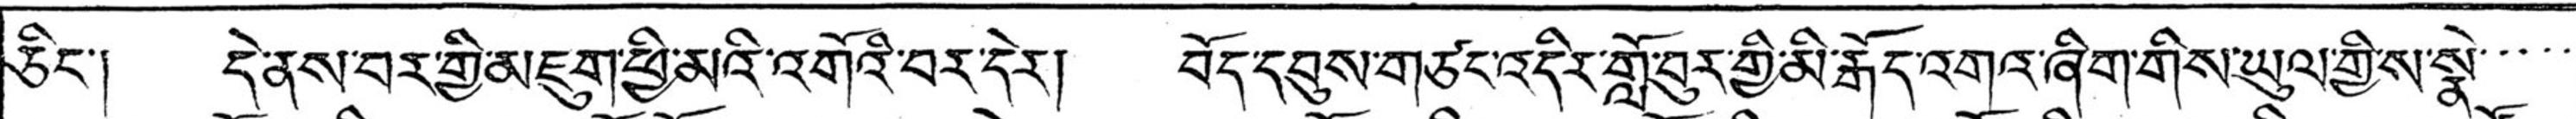ཅིང་། དེ་ནས་བར་གྱི་མཇུག་ཕྱི་མའི་འགོའི་བར་དེར། བོད་དབུས་གཙང་འདིར་གློ་བུར་གྱི་མི་རྒོད་འགའ་ཞིག་གིས་ཡུལ་གྱི་ས་སྣེ་་་་
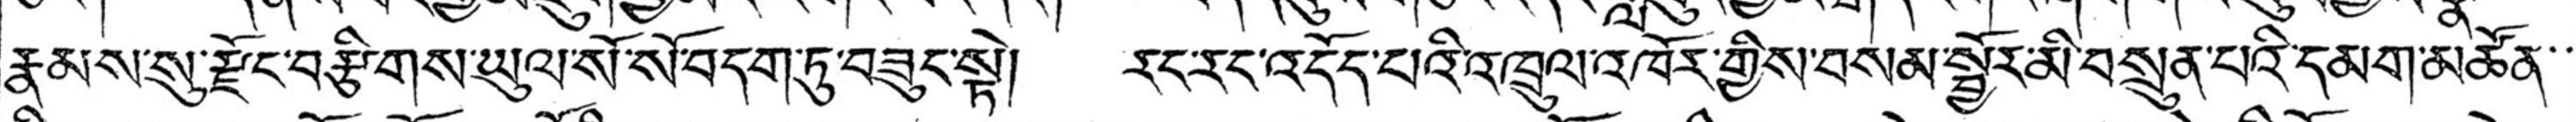རྣམས་སུ་རྫོང་བརྩིགས་ཡུལ་སོ་སོ་བདག་ཏུ་བཟུང་སྟེ། རང་རང་འདོད་པའི་འཁྲུལ་འཁོར་གྱིས་བསམ་སྦྱོར་མི་བསྲུན་པའི་དམག་མཚོན་་་
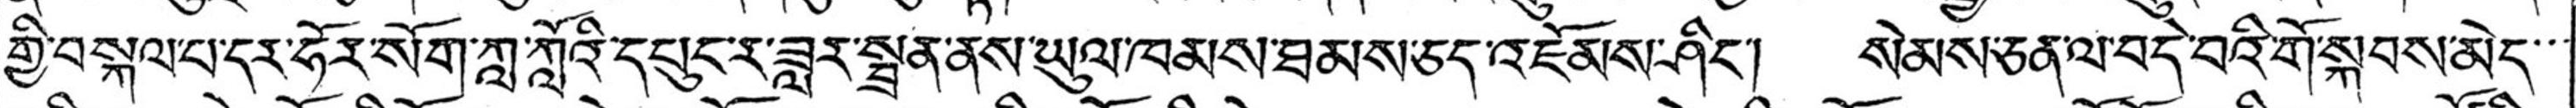གྱི་བསྐལ་པ་དར་ཧོར་སོག་ཀླ་ཀློའི་དཔུང་ར་ཟླར་སྦྲན་ནས་ཡུལ་ཁམས་ཐམས་ཅད་འཇོམས་ཤིང་། སེམས་ཅན་ལ་བདེ་བའི་གོ་སྐབས་མེད་་་
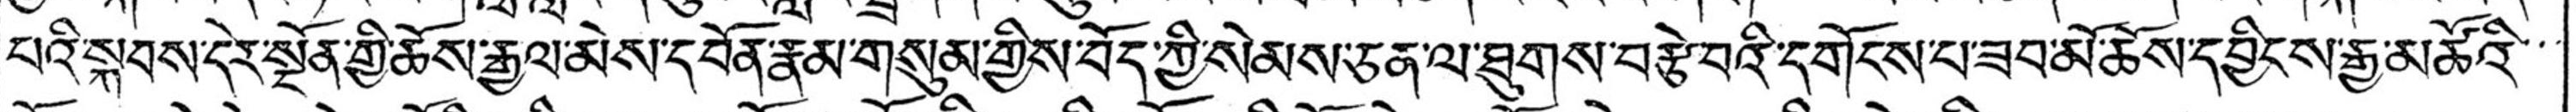པའི་སྐབས་དེར་སྔོན་གྱི་ཆོས་རྒྱལ་མེས་དབོན་རྣམ་གསུམ་གྱིས་བོད་ཀྱི་སེམས་ཅན་ལ་ཐུགས་བརྩེ་བའི་དགོངས་པ་ཟབ་མི་ཆོས་དབྱིངས་རྒྱ་མཚོའི་་་
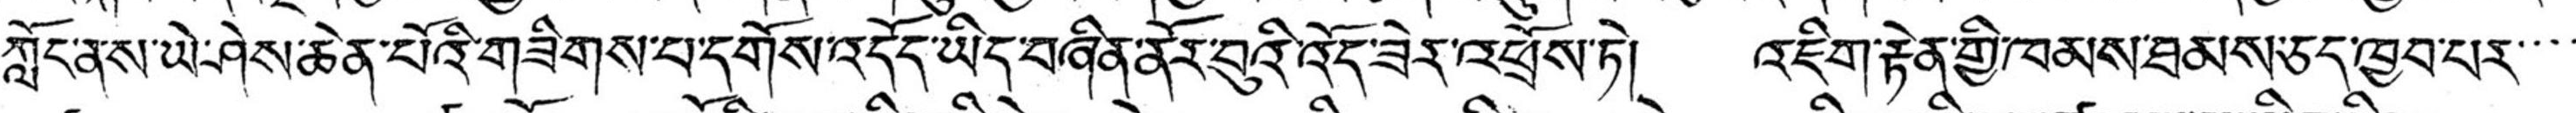ཀློང་ནས་ཡེ་ཤེས་ཆེན་པོའི་གཟིགས་པ་དགོས་འདོད་ཡིད་བཞིན་ནོར་བུའི་འོད་ཟེར་འཕྲོས་ཏེ། འཇིག་རྟེན་གྱི་ཁམས་ཐམས་ཅད་ཁྱབ་པར་་་་
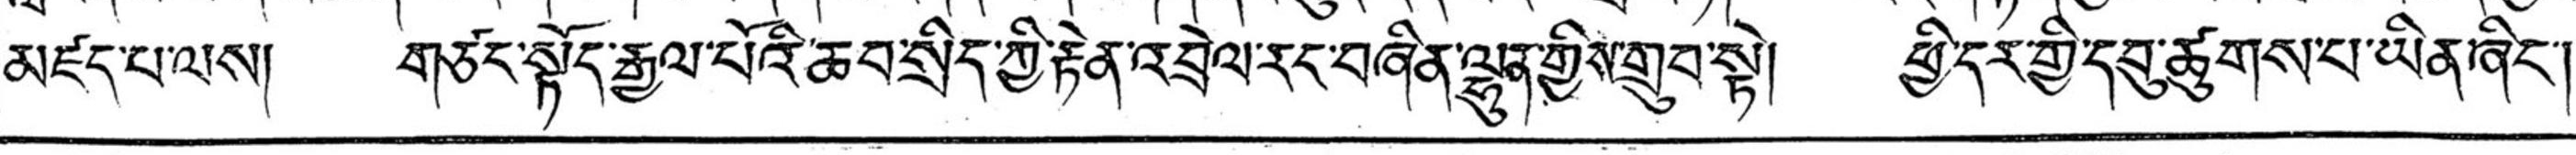མཛད་པ་ལས། གཙང་སྟོད་རྒྱལ་པོའི་ཆབ་སྲིད་ཀྱི་རྟེན་འབྲེལ་རང་བཞིན་ལྷུན་གྱིས་གྲུབ་སྟེ། ཕྱི་དར་གྱི་དབུ་ཚུགས་པ་ཡིན་ཞིང་།
